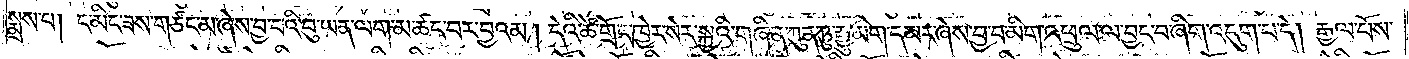སྨྲས་པ། ང་མིང་ཟས་གཙང་མ་ཞེས་བྱ་བའི་བུ་ཡན་ལག་མ་ཚང་བར་བྱའམ། དེའི་ཚེ་གྲོང་ཁྱེར་སེར་སྐྱའི་གཞི་ན་ཀུན་ཏུ་རྒྱུ་མིག་དམར་ཞེས་བྱ་བ་མིག་འཕྲུལ་ལ་བྱང་བ་ཞིག་འདུག་པ་དེ། རྒྱལ་པོས་
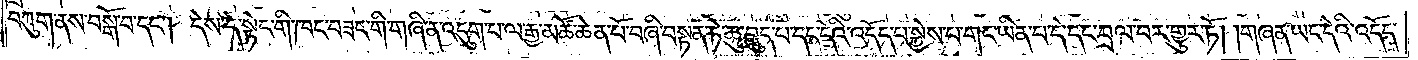བཀུག་ནས་བསྒོ་བ་དང༌། དེས་དེ་སྟེང་གི་ཁང་བཟང་གི་གཞི་ན་འདུག་པ་ལ་རྒྱ་མཚོ་ཆེན་པོ་བཞི་བསྟན་ཏེ་ཆུ་བླུད་པ་དང་དེའི་འདོད་པ་སྐྱེས་པ་གང་ཡིན་པ་དེ་དང་བྲལ་བར་གྱུར་ཏོ། །གཞན་ཡང་དེའི་འདོད་
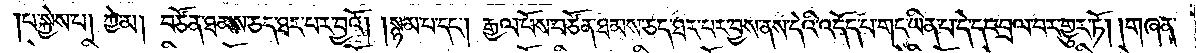པ་སྐྱེས་པ། ཀྱེ་མ། བཙོན་ཐམས་ཅད་ཐར་པར་བྱའོ། །སྙམ་པ་དང༌། རྒྱལ་པོས་བཙོན་ཐམས་ཅད་ཐར་པར་བྱས་ནས་དེའི་འདོད་པ་གང་ཡིན་པ་དེ་དང་བྲལ་བར་གྱུར་ཏོ། །གཞན་
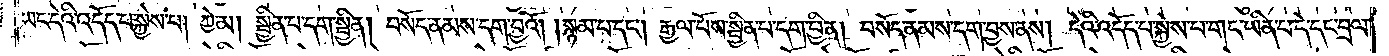ཡང་དེའི་འདོད་པ་སྐྱེས་པ། ཀྱེ་མ། སྦྱིན་པ་དག་སྦྱིན། བསོད་ནམས་དག་བྱའོ། །སྙམ་པ་དང༌། རྒྱལ་པོས་སྦྱིན་པ་དག་བྱིན། བསོད་ནམས་དག་བྱས་ནས། དེའི་འདོད་པ་སྐྱེས་པ་གང་ཡིན་པ་དེ་དང་བྲལ་
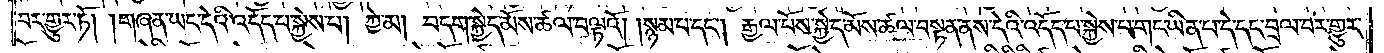བར་གྱུར་ཏོ། །གཞན་ཡང་དེའི་འདོད་པ་སྐྱེས་པ། ཀྱེ་མ། བདག་སྐྱེད་མོས་ཚལ་བལྟའོ། །སྙམ་པ་དང༌། རྒྱལ་པོས་སྐྱེད་མོས་ཚལ་བསྟན་ནས་དེའི་འདོད་པ་སྐྱེས་པ་གང་ཡིན་པ་དེ་དང་བྲལ་བར་གྱུར་
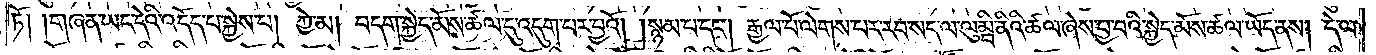ཏོ། །གཞན་ཡང་དེའི་འདོད་པ་སྐྱེས་པ། ཀྱེ་མ། བདག་སྐྱེད་མོས་ཚལ་དུ་འདུག་པར་བྱའོ། །སྙམ་པ་དང༌། རྒྱལ་པོ་ལེགས་པར་རབ་སད་ལ་ལུམྦི་ནིའི་ཚལ་ཞེས་བྱ་བའི་སྐྱེད་མོས་ཚལ་ཡོད་ནས། དེ་ལ་
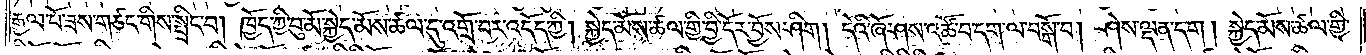རྒྱལ་པོ་ཟས་གཙང་གིས་སྤྲིང་བ། ཁྱོད་ཀྱི་བུ་མོ་སྐྱེད་མོས་ཚལ་དུ་འགྲོ་བར་འདོད་ཀྱི། སྐྱེད་མོས་ཚལ་གྱི་བྱི་དོར་བྱོས་ཤིག །དེའི་ཞོ་ཤས་འཚོ་བ་དག་ལ་བསྒོ་བ། ཤེས་ལྡན་དག །སྐྱེད་མོས་ཚལ་གྱི་
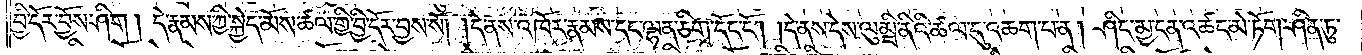བྱི་དོར་བྱོས་ཤིག །དེ་རྣམས་ཀྱི་སྐྱེད་མོས་ཚལ་གྱི་བྱི་དོར་བྱས་སོ། །དེ་ནས་འཁོར་རྣམས་དང་ལྷན་ཅིག་དོང་ངོ༌། །དེ་ནས་དེས་ལུམྦི་ནིའི་ཚལ་དུ་འཆག་པ་ན། ཤིང་མྱ་ངན་འཚང་མེ་ཏོག་ཤིན་ཏུ་
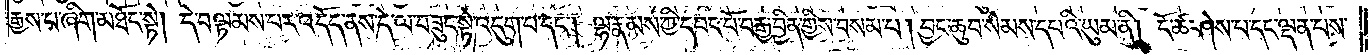རྒྱས་པ་ཞིག་མཐོང་སྟེ། དེ་བལྟམས་པར་འདོད་ནས་དེ་ལ་བཟུང་སྟེ་འདུག་པ་དང༌། ལྷ་རྣམས་ཀྱི་དབང་པོ་བརྒྱ་བྱིན་གྱིས་བསམ་པ། བྱང་ཆུབ་སེམས་དཔའི་ཡུམ་ནི། ངོ་ཚ་ཤེས་པ་དང་ལྡན་པས་
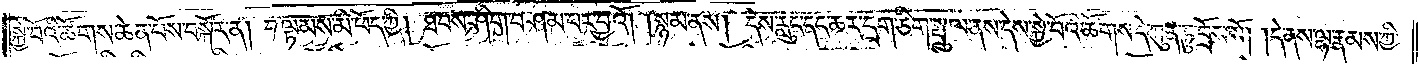སྐྱེ་བོའི་ཚོགས་ཆེན་པོས་བསྐོར་ན། བལྟམས་མི་ཕོད་ཀྱི། ཐབས་ཤིག་བཤམ་པར་བྱའོ། །སྙམ་ནས། དེས་རླུང་དང་ཆར་དྲག་ཅིག་སྤྲུལ་ནས་དེས་སྐྱེ་བོའི་ཚོགས་དེ་ཀུན་ཏུ་བྲོས་སོ། །དེ་ནས་ལྷ་རྣམས་ཀྱི་
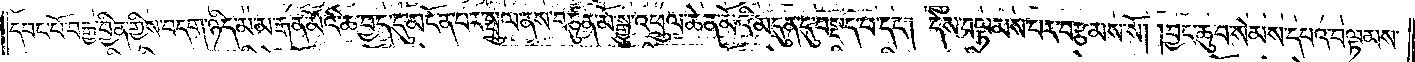དབང་པོ་བརྒྱ་བྱིན་གྱིས་བདག་ཉིད་མ་མ་རྒན་མོའི་ཆ་བྱད་དུ་མངོན་པར་སྤྲུལ་ནས་བཙུན་མོ་སྒྱུ་འཕྲུལ་ཆེན་མོའི་མདུན་དུ་བསྡད་པ་དང༌། དེས་བལྟམས་པར་བརྩམས་སོ། །བྱང་ཆུབ་སེམས་དཔའ་བལྟམས་
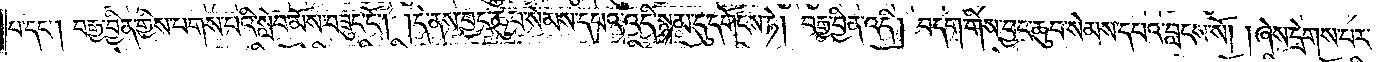པ་དང༌། བརྒྱ་བྱིན་གྱིས་པགས་པའི་སླེབ་མོས་བཟུང་ངོ༌། །དེ་ནས་བྱང་ཆུབ་སེམས་དཔའ་འདི་སྙམ་དུ་དགོངས་ཏེ། བརྒྱ་བྱིན་འདི། བདག་གིས་བྱང་ཆུབ་སེམས་དཔའ་བླངས་སོ། །ཞེས་དྲེགས་པར་
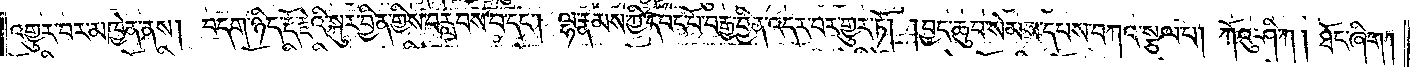འགྱུར་བར་མཁྱེན་ནས། བདག་ཉིད་རྡོ་རྗེའི་སྐུར་བྱིན་གྱིས་བརླབས་པ་དང༌། ལྷ་རྣམས་ཀྱི་དབང་པོ་བརྒྱ་བྱིན་འདར་བར་གྱུར་ཏོ། །བྱང་ཆུབ་སེམས་དཔས་བཀའ་སྩལ་པ། ཀོའུ་ཤི་ཀ། ཐོང་ཞིག །
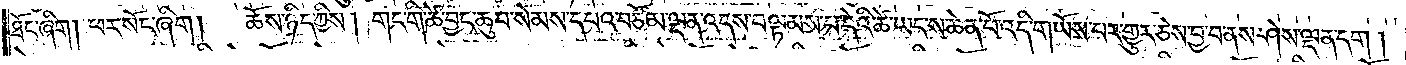ཐོང་ཞིག །ཕར་སོང་ཞིག  །ཆོས་ཉིད་ཀྱིས། གང་གི་ཚེ་བྱང་ཆུབ་སེམས་དཔའ་བཅོམ་ལྡན་འདས་བལྟམས་པ་དེའི་ཚེ་ཡང་ས་ཆེན་པོ་འདི་གཡོས་པར་གྱུར་ཅེས་བྱ་བ་ནས་ཤེས་ལྡན་དག །
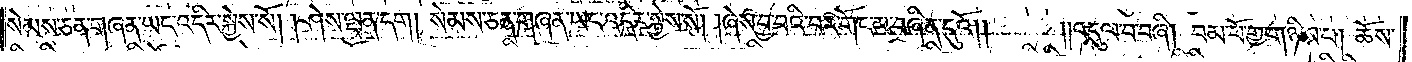སེམས་ཅན་གཞན་ཡང་འདིར་སྐྱེས་སོ། །ཤེས་ལྡན་དག །སེམས་ཅན་གཞན་ཡང་འདིར་སྐྱེས་སོ། །ཞེས་བྱ་བའི་བར་གོང་མ་བཞིན་དུའོ༎<gap>༎འདུལ་བ་བཞི། བམ་པོ་གྱ་གཉིས་པ། ཆོས་
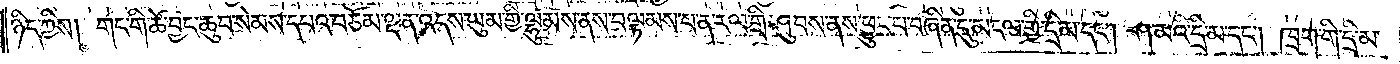ཉིད་ཀྱིས། གང་གི་ཚེ་བྱང་ཆུབ་སེམས་དཔའ་བཅོམ་ལྡན་འདས་ཡུམ་གྱི་ལྷུམས་ནས་བལྟམས་པ་ན་རལ་གྲི་ཤུབས་ནས་ཕྱུང་བ་བཞིན་དུ་མངལ་གྱི་དྲི་མ་དང༌། ཤ་མའི་དྲི་མ་དང༌། ཁྲག་གི་དྲི་མ་
